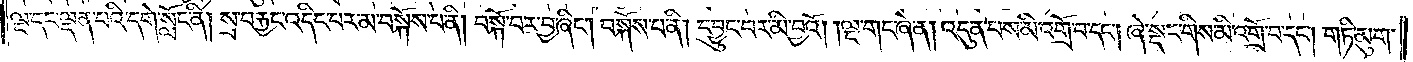ལྔ་དང་ལྡན་པའི་དགེ་སློང་ནི། སྲས་བརྐྱང་འདིང་པར་མ་བསྐོས་པ་ནི། བསྐོ་བར་བྱ་ཞིང༌། བསྐོས་པ་ནི། དབྱུང་བར་མི་བྱའོ། །ལྔ་གང་ཞེ་ན། འདུན་པས་མི་འགྲོ་བ་དང༌། ཞེ་སྡང་གིས་མི་འགྲོ་བ་དང༌། གཏི་མུག་
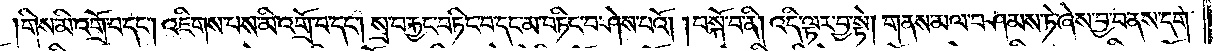གིས་མི་འགྲོ་བ་དང༌། འཇིགས་པས་མི་འགྲོ་བ་དང༌། སྲ་བརྐྱང་བཏིང་བ་དང་མ་བཏིང་བ་ཤེས་པའོ། །བསྐོ་བ་ནི། འདི་ལྟར་བྱ་སྟེ། གནས་མལ་བཤམས་ཏེ་ཞེས་བྱ་བ་ནས་དགེ་
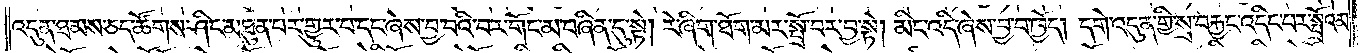འདུན་ཐམས་ཅད་ཚོགས་ཤིང་མཐུན་པར་གྱུར་པ་དང་ཞེས་བྱ་བའི་བར་གོང་མ་བཞིན་དུ་སྟེ། རེ་ཞིག་ཐོག་མར་སྤྲོ་བར་བྱ་སྟེ། མིང་འདི་ཞེས་བྱ་བ་ཁྱོད། དགེ་འདུན་གྱི་སྲ་བརྐྱང་འདིང་བར་སྤྲོའམ་
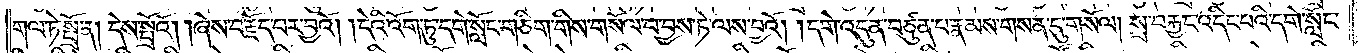གལ་ཏེ་སྤྲོ་ན། དེས་སྤྲོའོ། །ཞེས་བརྗོད་པར་བྱའོ། །དེའི་འོག་ཏུ་དགེ་སློང་གཅིག་གིས་གསོལ་བ་བྱས་ཏེ་ལས་བྱའོ། །དགེ་འདུན་བཙུན་པ་རྣམས་གསན་དུ་གསོལ། སྲ་བརྐྱང་འདིང་བའི་དགེ་སློང་
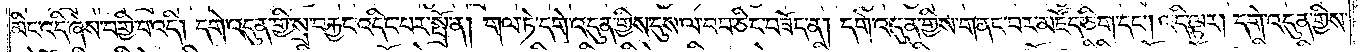མིང་འདི་ཞེས་བགྱི་བ་འདི། དགེ་འདུན་གྱིས་སྲས་བརྐྱང་འདིང་པར་སྤྲོ་ན། གལ་ཏེ་དགེ་འདུན་གྱིས་དུས་ལ་བབ་ཅིང་བཟོད་ན། དགེ་འདུན་གྱིས་གནང་པར་མཛོད་ཅིག་དང༌། འདི་ལྟར་དགེ་འདུན་གྱིས་
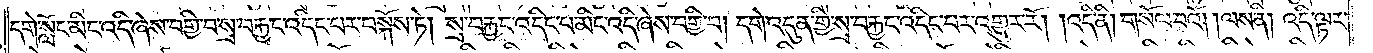དགེ་སློང་མིང་འདི་ཞེས་བགྱི་བ་སྲ་བརྐྱང་འདིང་བར་བསྐོས་ཏེ། སྲ་བརྐྱང་འདིང་པ་མིང་འདི་ཞེས་བགྱི་བ། དགེ་འདུན་གྱི་སྲ་བརྐྱང་འདིང་པར་འགྱུར་རོ། །འདི་ནི། གསོལ་བའོ། །ལས་ནི། འདི་ལྟར་
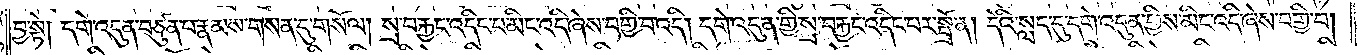བྱ་སྟེ། དགེ་འདུན་བཙུན་པ་རྣམས་གསན་དུ་གསོལ། སྲ་བརྐྱང་འདིང་པ་མིང་འདི་ཞེས་བགྱི་བ་འདི། དགེ་འདུན་གྱི་སྲ་བརྐྱང་འདིང་པར་སྤྲོ་ན། དེའི་སླད་དུ་དགེ་འདུན་གྱིས་མིང་འདི་ཞེས་བགྱི་བ།
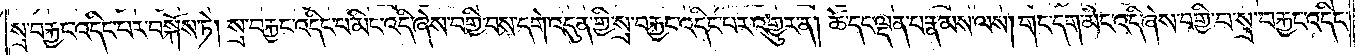སྲ་བརྐྱང་འདིང་པར་བསྐོས་ཏེ། སྲ་བརྐྱང་འདིང་པ་མིང་འདི་ཞེས་བགྱི་བས་དགེ་འདུན་གྱི་སྲ་བརྐྱང་འདིང་བར་འགྱུར་ན། ཚེ་དང་ལྡན་པ་རྣམས་ལས། གང་དག་མིང་འདི་ཞེས་བགྱི་བ་སྲ་བརྐྱང་འདིང་
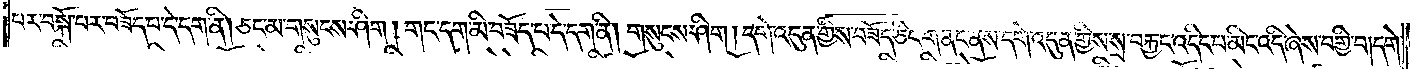པར་བསྐོ་བར་བཟོ་པ་དེ་དག་ནི། ཅང་མ་གསུངས་ཤིག །གང་དག་མི་བཟོད་པ་དེ་དག་ནི། གསུངས་ཤིག །དགེ་འདུན་གྱིས་བཟོད་ཅིང་གནང་ནས་དགེ་འདུན་གྱིས་སྲ་བརྐྱང་འདིང་པ་མིང་འདི་ཞེས་བགྱི་བ། དགེ་
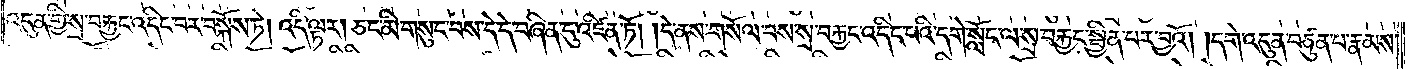འདུན་གྱི་སྲ་བརྐྱང་འདིང་བར་བསྐོས་ཏེ། འདི་ལྟར། ཅང་མི་གསུང་བས་དེ་དེ་བཞིན་དུ་འཛིན་ཏོ། །དེ་ནས་གསོལ་བས་སྲས་བརྐྱང་འདིང་པའི་དགེ་སློང་ལ་སྲ་བརྐྱང་སྦྱིན་པར་བྱའོ། །དགེ་འདུན་བཙུན་པ་རྣམས་
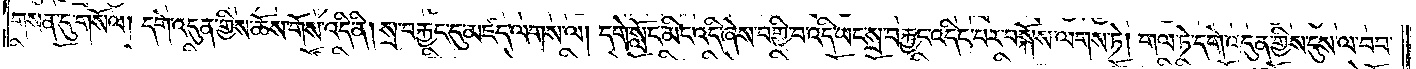གསན་དུ་གསོལ། དགེ་འདུན་གྱིས་ཆོས་གོས་འདི་ནི། སྲ་བརྐྱང་དུ་མཛད་ལགས་ལ། དགེ་སློང་མིང་འདི་ཞེས་བགྱི་བ་འདི་ཡང་སྲ་བརྐྱང་འདིང་པར་བསྐོས་ལགས་ཏེ། གལ་ཏེ་དགེ་འདུན་གྱིས་དུས་ལ་བབ་
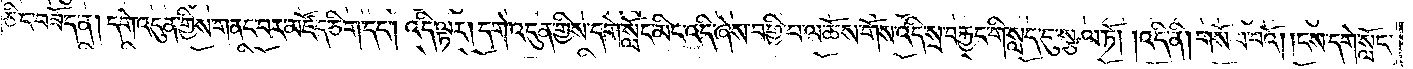ཅིང་བཟོད་ན། དགེ་འདུན་གྱིས་གནང་བར་མཛོད་ཅིག་དང༌། འདི་ལྟར། དགེ་འདུན་གྱིས་དགེ་སློང་མིང་འདི་ཞེས་བགྱི་བ་ལ་ཆོས་གོས་འདི་སྲ་བརྐྱང་གི་སླད་དུ་སྩལ་ཏོ། །འདི་ནི། གསོལ་བའོ། །ངས་དགེ་སློང་
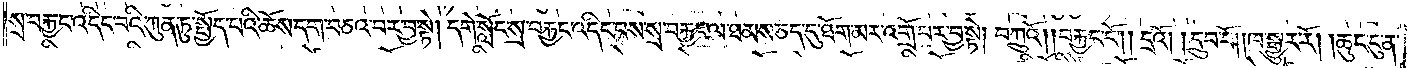སྲ་བརྐྱང་འདིང་བའི་ཀུན་ཏུ་སྤྱོད་པའི་ཆོས་དག་བཅའ་བར་བྱ་སྟེ། དགེ་སློང་སྲས་བརྐྱང་འདིང་པས་སྲ་བརྐྱང་ལ་ཐམས་ཅད་དུ་ཐོག་མར་འགྲོ་བར་བྱ་སྟེ། བཀྲུའོ། །བརྐྱང་ངོ༌། །དྲའོ། །དྲུབ་བོ། །ཁ་སྒྱུར་རོ། །ཆུང་ངུ་ན་
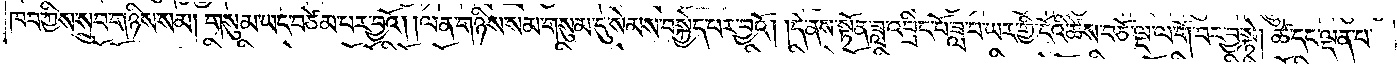ཁབ་ཀྱིས་སྲུབ་གཉིས་སམ། གསུམ་ཡང་བཙེམ་པར་བྱའོ། །ལན་གཉིས་སམ་གསུམ་དུ་སེམས་བསྐྱེད་པར་བྱའོ། །དེ་ནས་སྟོན་ཟླ་འབྲིང་པོ་ཟླ་བ་ཡར་གྱི་ངོའི་ཚེས་བཅོ་ལྔ་ལ་གོ་བར་བྱ་སྟེ། ཚེ་དང་ལྡན་པ་
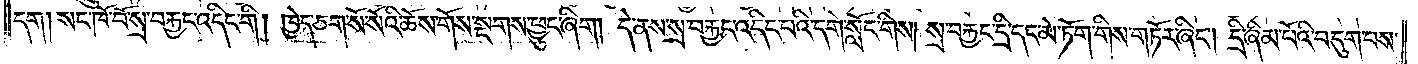དག །སང་ཁོ་བོས་སྲ་བརྐྱང་འདིང་གི །ཁྱེད་ཅག་སོ་སོའི་ཆོས་གོས་སྔགས་ཕྱུང་ཞིག །དེ་ནས་སྲ་བརྐྱང་འདིང་པའི་དགེ་སློང་གིས། སྲ་བརྐྱང་དྲི་དང་མེ་ཏོག་གིས་གཏོར་ཞིང༌། དྲི་ཞིམ་པོའི་བདུག་པས་
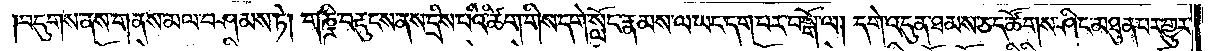བདུགས་ནས་གནས་མལ་བཤམས་ཏེ། གཎྜི་བརྡུངས་ནས་དྲིས་པའི་ཚིག་གིས་དགེ་སློང་རྣམས་ལ་ཡང་དག་པར་བསྒོ་ལ། དགེ་འདུན་ཐམས་ཅད་ཚོགས་ཤིང་མཐུན་པར་གྱུར་
